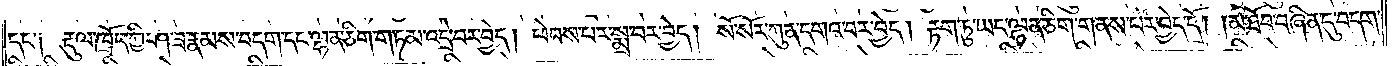དང་༑ རྡུལ་ཁྲོད་ཀྱི་ཤ་ཟ་རྣམས་བདག་དང་ལྷན་ཅིག་གཏམ་འདྲེ་བར་བྱེད། ཕེབས་པར་སྨྲ་བར་བྱེད། སོ་སོར་ཀུན་དགའ་བར་བྱེད། རྟག་ཏུ་ཡང་ལྷན་ཅིག་གནས་པར་བྱེད་དོ། །མ་ཐོབ་བཞིན་དུ་བདག་
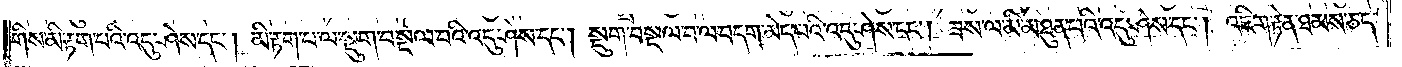གིས་མི་རྟག་པའི་འདུ་ཤེས་དང༌། མི་རྟག་པ་ལ་སྡུག་བསྔལ་བའི་འདུ་ཤེས་དང༌། སྡུག་བསྔལ་བ་ལ་བདག་མེད་པའི་འདུ་ཤེས་དང༌། ཟས་ལ་མི་མཐུན་པའི་འདུ་ཤེས་དང༌། འཇིག་རྟེན་ཐམས་ཅད་
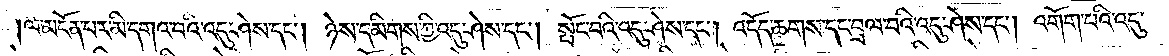།ལ་མངོན་པར་མི་དགའ་བའི་འདུ་ཤེས་དང༌། ཉེས་དམིགས་ཀྱི་འདུ་ཤེས་དང༌། སྤོང་བའི་འདུ་ཤེས་དང༌། འདོད་ཆགས་དང་བྲལ་བའི་འདུ་ཤེས་དང༌། འགོག་པའི་འདུ་
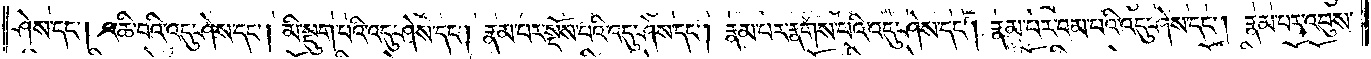ཤེས་དང༌། འཆི་བའི་འདུ་ཤེས་དང༌། མི་སྡུག་པའི་འདུ་ཤེས་དང༌། རྣམ་པར་སྔོས་པའི་འདུ་ཤེས་དང༌། རྣམ་པར་རྣགས་པའི་འདུ་ཤེས་དང༌། རྣམ་པར་བམ་པའི་འདུ་ཤེས་དང༌། རྣམ་པར་འབུས་
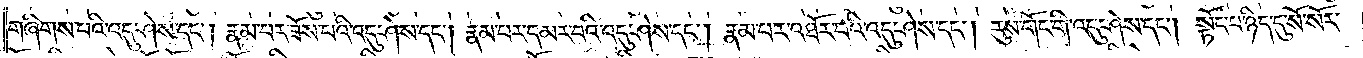གཞིགས་པའི་འདུ་ཤེས་དང༌། རྣམ་པར་ཟོས་པའི་འདུ་ཤེས་དང༌། རྣམ་པར་དམར་བའི་འདུ་ཤེས་དང༌། རྣམ་པར་འཐོར་བའི་འདུ་ཤེས་དང༌། རུས་གོང་གི་འདུ་ཤེས་དང༌། སྟོང་པ་ཉིད་དུ་སོ་སོར་
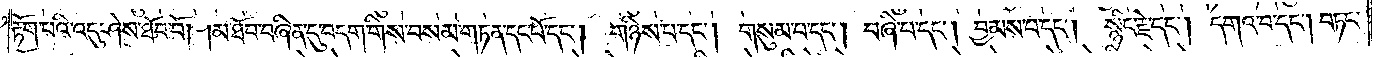རྟོག་པའི་འདུ་ཤེས་ཐོབ་བོ། མ་ཐོབ་བཞིན་དུ་བདག་གིས་བསམ་གཏན་དང་པོ་དང༌། གཉིས་པ་དང༌། གསུམ་པ་དང༌། བཞི་པ་དང༌། བྱམས་པ་དང༌། སྙིང་རྗེ་དང༌། དགའ་བ་དང༌། བཏང་
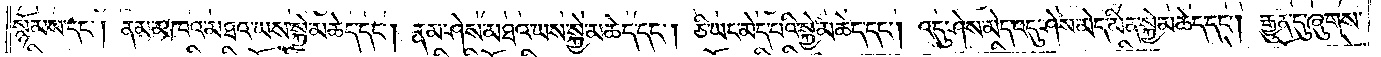སྙོམས་དང༌། ནམ་མཁའ་མཐའ་ཡས་སྐྱེ་མཆེད་དང༌། རྣམ་ཤེས་མཐའ་ཡས་སྐྱེ་མཆེད་དང༌། ཅི་ཡང་མེད་པའི་སྐྱེ་མཆེད་དང༌། འདུ་ཤེས་མེད་འདུ་ཤེས་མེད་མིན་སྐྱེ་མཆེད་དང༌། རྒྱུན་དུ་ཞུགས་
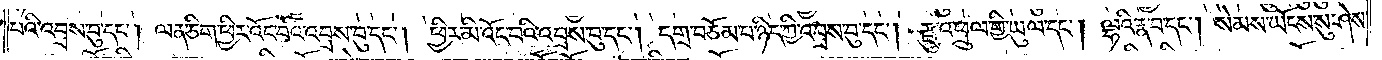པའི་འབྲས་བུ་དང༌། ལན་ཅིག་ཕྱིར་འོང་བའི་འབྲས་བུ་དང༌། ཕྱིར་མི་འོང་བའི་འབྲས་བུ་དང༌། དགྲ་བཅོམ་པ་ཉིད་ཀྱི་འབྲས་བུ་དང༌། རྫུ་འཕྲུལ་གྱི་ཡུལ་དང༌། ལྷའི་རྣ་བ་དང༌། སེམས་ཡོངས་སུ་ཤེས་
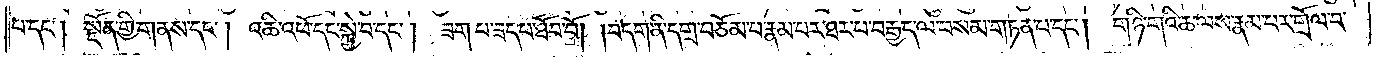པ་དང༌། སྔོན་གྱི་གནས་དང༌། འཆི་འཕོ་དང་སྐྱེ་བ་དང༌། ཟག་པ་ཟད་པ་ཐོབ་བོ། །བདག་ནི་དགྲ་བཅོམ་པ་རྣམ་པར་ཐར་པ་བརྒྱད་ལ་བསམ་གཏན་པ་དང༌། གཉི་གའི་ཆ་ལས་རྣམ་པར་གྲོལ་བ་
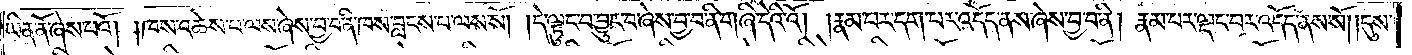ཡིན་ནོ་ཞེས་པའོ། །ཁས་འཆེས་པ་ལས་ཞེས་བྱ་བ་ནི་ཁས་བླངས་པ་ལས་སོ། །དེ་ལྟུང་བ་བྱུང་བ་ཞེས་བྱ་བ་ནི་གཞི་དེའི་འོ། །རྣམ་པར་དག་པར་འདོད་ནས་ཞེས་བྱ་བ་ནི། རྣམ་པར་ལྡང་བར་འདོད་ནས་སོ། །དུས་
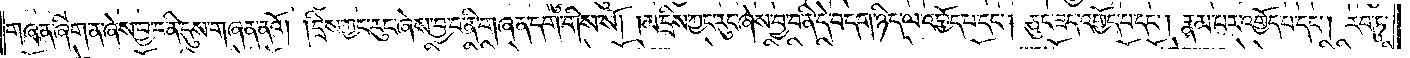གཞན་ཞིག་ན་ཞེས་བྱ་བ་ནི་དུས་གཞན་ནའོ། །དྲིས་ཀྱང་རུང་ཞེས་བྱ་བ་ནི་གཞན་དག་གིས་སོ། །མ་དྲིས་ཀྱང་རུང་ཞེས་བྱ་བ་ནི་དེ་བདག་ཉིད་ལ་འགྱོད་པ་དང༌། ཅུང་ཟད་འགྱོད་པ་དང༌། རྣམ་པར་འགྱོད་པ་དང༌། རབ་ཏུ་
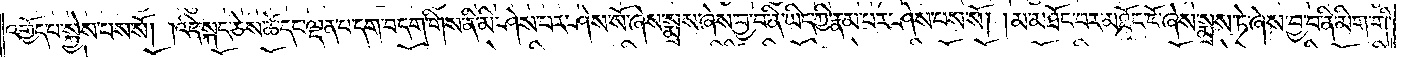འགྱོད་པ་སྐྱེས་པས་སོ། །འདི་སྐད་ཅེས་ཚེ་དང་ལྡན་པ་དག་བདག་གིས་ནི་མི་ཤེས་པར་ཤེས་སོ་ཞེས་སྨྲས་ཞེས་བྱ་བ་ནི་ཡིད་ཀྱི་རྣམ་པར་ཤེས་པས་སོ། །མ་མཐོང་བར་མཐོང་ངོ་ཞེས་སྨྲས་ཏེ་ཞེས་བྱ་བ་ནི་མིག་གི་
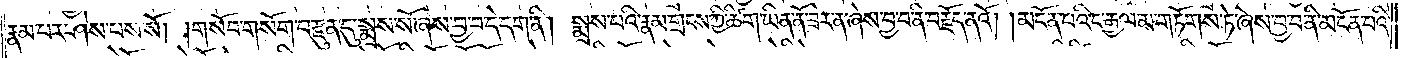རྣམ་པར་ཤེས་པས་སོ། །གསོབ་གསོག་བརྫུན་དུ་སྨྲས་སོ་ཞེས་བྱ་བ་དེ་དག་ནི། སྨྲས་པའི་རྣམ་གྲངས་ཀྱི་ཚིག་ཡིན་ནོ་ཟེར་ན་ཞེས་བྱ་བ་ནི་བརྗོད་ནའོ། །མངོན་པའི་ང་རྒྱལ་མ་གཏོགས་ཏེ་ཞེས་བྱ་བ་ནི་མངོན་པའི་
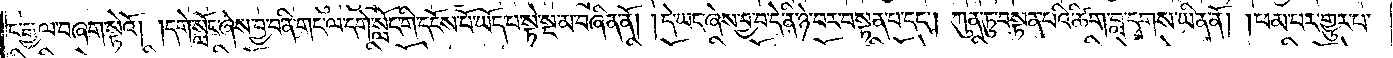ང་རྒྱལ་བཞག་སྟེའོ། །དགེ་སློང་ཞེས་བྱ་བ་ནི་གང་ལ་དགེ་སློང་གི་དངོས་པོ་ཡོད་པ་སྟེ་སྔ་མ་བཞིན་ནོ། །དེ་ཡང་ཞེས་བྱ་བ་དེ་ནི་ཉེ་བར་བསྟན་པ་དང༌། ཀུན་ཏུ་བསྟན་པའི་ཚིག་བླ་དྭགས་ཡིན་ནོ། །ཕམ་པར་གྱུར་པ་
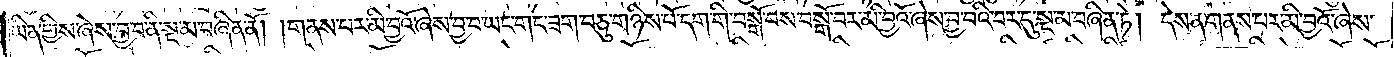ཡིན་གྱིས་ཞེས་བྱ་བ་ནི་སྔ་མ་བཞིན་ནོ། །གནས་པར་མི་བྱའོ་ཞེས་བྱ་བ་ཡང་གང་ཟག་བཅུ་གཉིས་པོ་དག་གི་བསྒོ་བས་བསྒོ་བར་མི་བྱའོ་ཞེས་བྱ་བའི་བར་དུ་སྔ་མ་བཞིན་ཏེ། དེས་ན་གནས་པར་མི་བྱའོ་ཞེས་
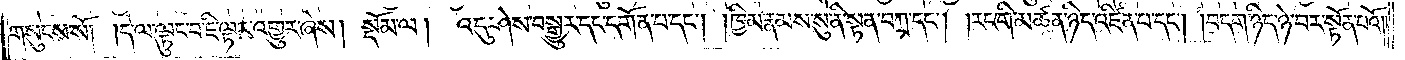གསུངས་སོ། །དེ་ལ་ལྟུང་བ་ཇི་ལྟར་འགྱུར་ཞེས། སྡོམ་ལ། འདུ་ཤེས་བསྒྱུར་དང་དགོན་པ་དང༌། །ཁྱིམ་རྣམས་སུ་ནི་སྟན་བཀྲ་དང༌། །རང་གི་མཚན་ཉིད་འཛིན་པ་དང༌། །བདག་ཉིད་ཉེ་བར་སྟོན་པའོ༎
